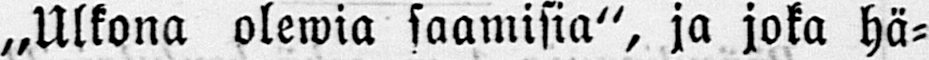„Ulkona olewia saamisia", ja joka hä-
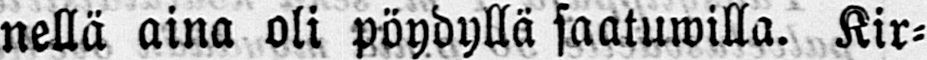nellä aina oli pöydyllä saatuwilla. Kir-
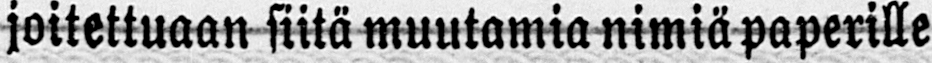joitettuaan siitä muutamia nimiä paperille
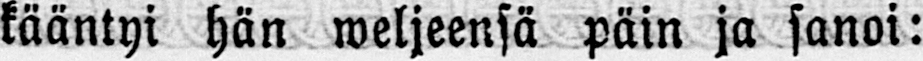kääntyi hän weljeensä päin ja sanoi:
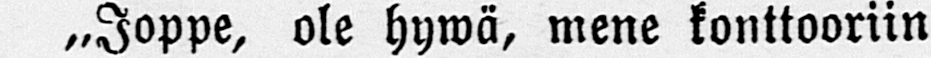„Joppe, ole hywä, mene konttooriin
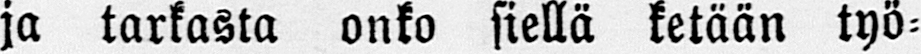ja tarkasta onko siellä ketään työ-
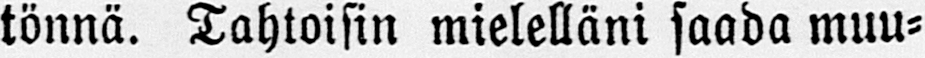tönnä. Tahtoisin mielelläni saada muu-
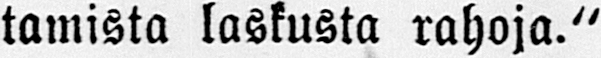tamista laskusta rahoja."
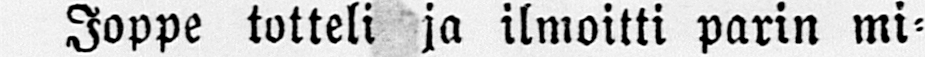Joppe totteli ja ilmoitti parin mi-
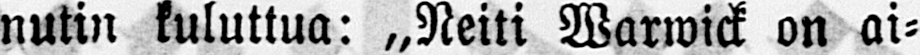nutin kuluttua: „Neiti Warwick on ai-
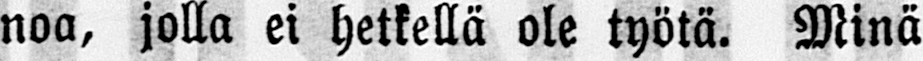noa, jolla ei hetkellä ole työtä. Minä
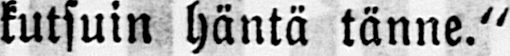kutsuin häntä tänne."
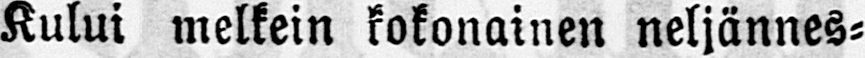Kului melkein kokonainen neljännes-
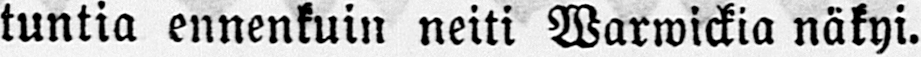tuntia ennenkuin neiti Warwickia näkyi.
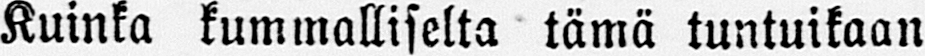Kuinka kummalliselta tämä tuntuikaan
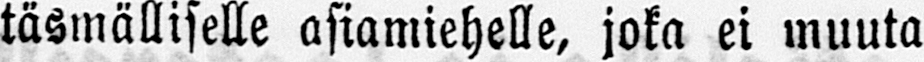täsmälliselle asiamiehelle, joka ei muuta
